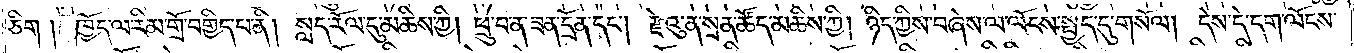ཅིག། ཁྱོད་ལ་རིམ་གྲོ་བགྱིད་པ་ནི། སླད་རོལ་དུ་མཆིས་ཀྱི། ཕྲུ་བ་ན་ཟན་དྲོན་དང༌། རྫེའུ་ན་སྲན་ཚོད་མཆིས་ཀྱི། ཉིད་ཀྱིས་བཞེས་ལ་ལོངས་སྤྱད་དུ་གསོལ། དེས་དེ་དག་ལོངས་
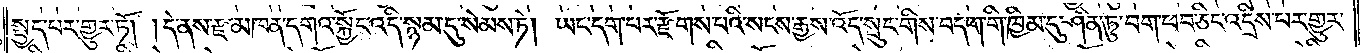སྤྱད་པར་གྱུར་ཏོ། །དེ་ནས་རྫ་མཁན་དགའ་སྐྱོང་འདི་སྙམ་དུ་སེམས་ཏེ། ཡང་དག་པར་རྫོགས་པའི་སངས་རྒྱས་འོད་སྲུང་གིས་བདག་གི་ཁྱིམ་དུ་ཤིན་ཏུ་བག་ཕབ་ཅིང་འདྲིས་པར་གྱུར་
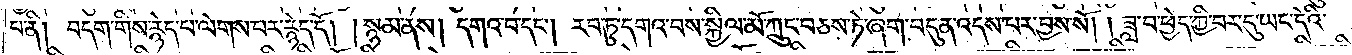པ་ནི། བདག་གིས་རྙེད་པ་ལེགས་པར་རྙེད་དོ། །སྙམ་ནས། དགའ་བ་དང༌། རབ་ཏུ་དགའ་བས་སྐྱིལ་མོ་ཀྲུང་བཅས་ཏེ་ཞག་བདུན་འདས་པར་བྱས་སོ། །ཟླ་བ་ཕྱེད་ཀྱི་བར་དུ་ཡང་དེའི་
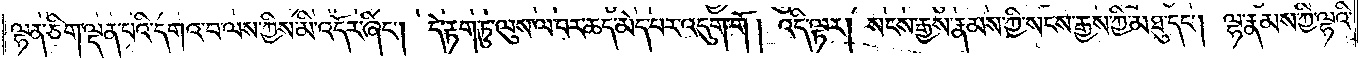ལྷན་ཅིག་ལྡན་པའི་དགའ་བ་ལས་ཀྱིས་མི་འདོར་ཞིང༌། དེ་རྟག་ཏུ་ལུས་ལ་བར་ཆད་མེད་པར་འདུག་གོ། འདི་ལྟར། སངས་རྒྱས་རྣམས་ཀྱི་སངས་རྒྱས་ཀྱི་མཐུ་དང༌། ལྷ་རྣམས་ཀྱི་ལྷའི་
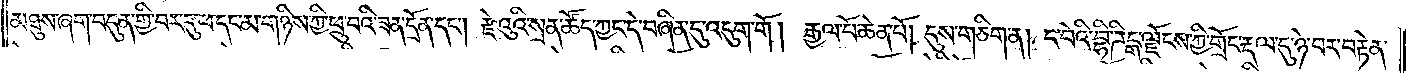མཐུས་ཞག་བདུན་གྱི་བར་དུ་ཕ་དང་མ་གཉིས་ཀྱི་ཕྲུ་བའི་ཟན་དྲོན་དང༌། རྫེའུའི་སྲན་ཚོད་ཀྱང་དེ་བཞིན་དུ་འདུག་གོ། རྒྱལ་པོ་ཆེན་པོ། དུས་གཅིག་ན། ང་བེའུ་བྷི་ཌིངྒ་ལྗོངས་ཀྱི་གྲོང་རྡལ་དུ་ཉེ་བར་བརྟེན་
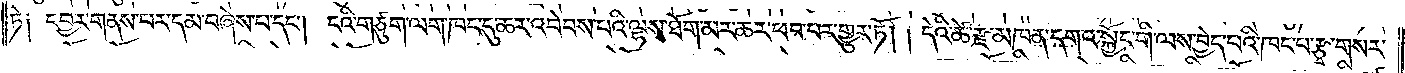ཏེ། དབྱར་གནས་པར་དམ་བཞེས་པ་དང༌། ངའི་གཙུག་ལག་ཁང་དུ་ཆར་འབེབས་པའི་ལྷས་ཐོག་མར་ཆར་ཕབ་པར་གྱུར་ཏོ། །དེའི་ཚེ་རྫ་མཁན་དགའ་སྐྱོང་གི་ལས་བྱེད་པའི་ཁང་པ་རྩྭ་གསར་
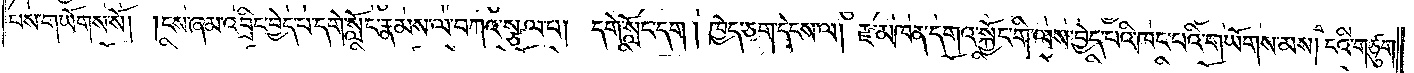པས་གཡོགས་སོ། །ངས་ཞམ་འབྲིང་བྱེད་པ་དགེ་སློང་རྣམས་ལ་བཀའ་སྩལ་པ། དགེ་སློང་དག། ཁྱེད་ཅག་དེངས་ལ། རྫ་མཁན་དགའ་སྐྱོང་གི་ལས་བྱེད་པའི་ཁང་པའི་གཡོགས་མས། ངའི་གཙུག་
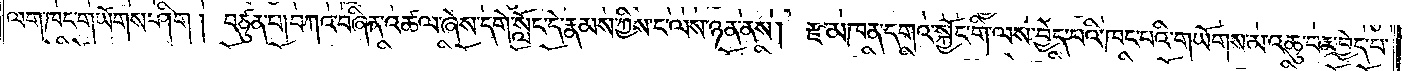ལག་ཁང་གཡོགས་ཤིག། བཙུན་པ། བཀའ་བཞིན་འཚལ་ཞེས་དགེ་སློང་དེ་རྣམས་ཀྱིས་ང་ལས་ཉན་ནས། རྫ་མཁན་དགའ་སྐྱོང་གི་ལས་བྱེད་པའི་ཁང་པའི་གཡོགས་མ་འཆུ་བར་བྱེད་པ་
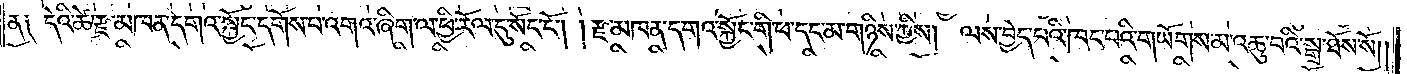ན། དེའི་ཚེ་རྫ་མཁན་དགའ་སྐྱོང་དགོས་པ་འགའ་ཞིག་ལ་ཕྱི་རོལ་དུ་སོང་ངོ༌། །རྫ་མཁན་དགའ་སྐྱོང་གི་ཕ་དང་མ་གཉིས་ཀྱིས། ལས་བྱེད་པའི་ཁང་པའི་གཡོགས་མ་འཆུ་བའི་སྒྲ་ཐོས་སོ། །
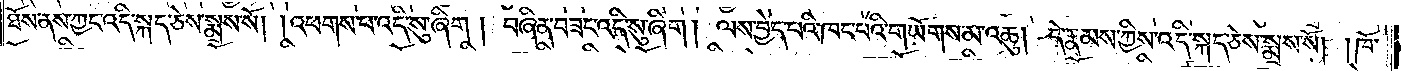ཐོས་ནས་ཀྱང་འདི་སྐད་ཅེས་སྨྲས་སོ། །འཕགས་པ་འདི་སུ་ཞིག། བཞིན་བཟང་འདི་སུ་ཞིག། ལས་བྱེད་པའི་ཁང་པའི་གཡོགས་མ་འཆུ། དེ་རྣམས་ཀྱིས་འདི་སྐད་ཅེས་སྨྲས་སོ། །ཁོ་
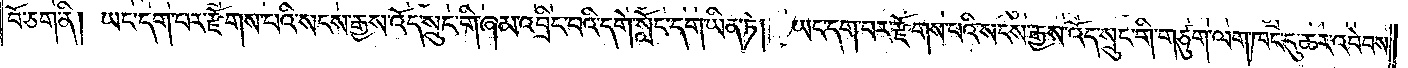བོ་ཅག་ནི། ཡང་དག་པར་རྫོགས་པའི་སངས་རྒྱས་འོད་སྲུང་གི་ཞམ་འབྲིང་བའི་དགེ་སློང་དག་ཡིན་ཏེ། ཡང་དག་པར་རྫོགས་པའི་སངས་རྒྱས་འོད་སྲུང་གི་གཙུག་ལག་ཁང་དུ་ཆར་འབེབས་
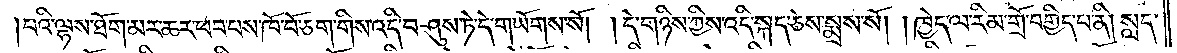པའི་ལྷས་ཐོག་མར་ཆར་ཕབ་པས་ཁོ་བོ་ཅག་གིས་འདི་བཤུས་ཏེ་དེ་གཡོགས་སོ། །དེ་གཉིས་ཀྱིས་འདི་སྐད་ཅེས་སྨྲས་སོ། །ཁྱེད་ལ་རིམ་གྲོ་བགྱིད་པ་ནི། སླད་
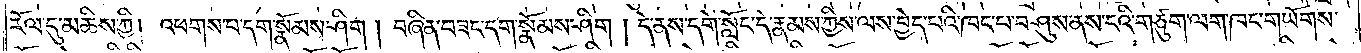རོལ་དུ་མཆིས་ཀྱི། འཕགས་པ་དག་སྣོམས་ཤིག། བཞིན་བཟང་དག་སྣོམས་ཤིག། དེ་ནས་དགེ་སློང་དེ་རྣམས་ཀྱིས་ལས་བྱེད་པའི་ཁང་པ་བཤུས་ནས་ངའི་གཙུག་ལག་ཁང་གཡོགས་
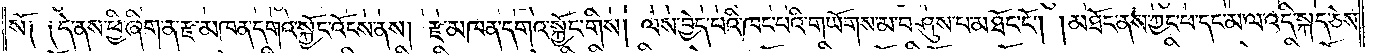སོ། །དེ་ནས་ཕྱི་ཞིག་ནི་རྫ་མཁན་དགའ་སྐྱོང་འོངས་ནས། རྫ་མཁན་དགའ་སྐྱོང་གིས། ལས་བྱེད་པའི་ཁང་པའི་གཡོགས་མ་བཤུས་པ་མཐོང་ངོ༌། །མཐོང་ནས་ཀྱང་ཕ་དང་མ་ལ་འདི་སྐད་ཅེས་
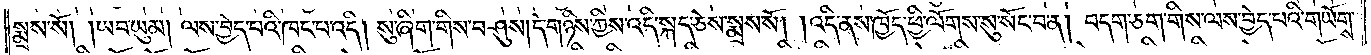སྨྲས་སོ། །ཡབ་ཡུམ། ལས་བྱེད་པའི་ཁང་པ་འདི། སུ་ཞིག་གིས་བཤུས། དེ་གཉིས་ཀྱིས་འདི་སྐད་ཅེས་སྨྲས་སོ། །འདི་ནས་ཁྱོད་ཕྱི་ལོགས་སུ་སོང་བ་ན། བདག་ཅག་གིས་ལས་བྱེད་པའི་གཡོགས་
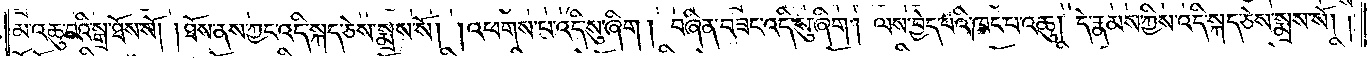མ་འཆུ་བའི་སྒྲ་ཐོས་སོ། །ཐོས་ནས་ཀྱང་འདི་སྐད་ཅེས་སྨྲས་སོ། །འཕགས་པ་འདི་སུ་ཞིག། བཞིན་བཟང་འདི་སུ་ཞིག། ལས་བྱེད་པའི་ཁང་པ་འཆུ། དེ་རྣམས་ཀྱིས་འདི་སྐད་ཅེས་སྨྲས་སོ། །
